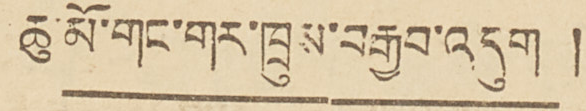ཆུ་མོ་གང་གར་ཁྲུས་བརྒྱབ་འདུག།།
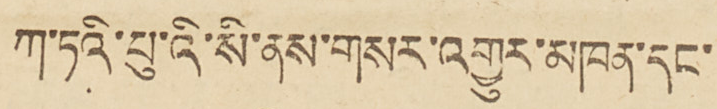ཀ་ཏའི་པུ་འི་སི་ནས་གསར་འགྱུར་མཁན་དང་
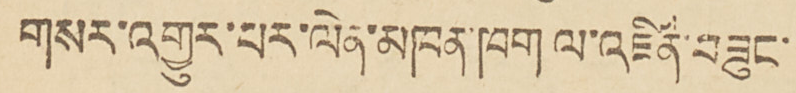གསར་འགྱུར་པར་ལེན་མཁན་ཁག ལ་འཛིན་བཟུང་
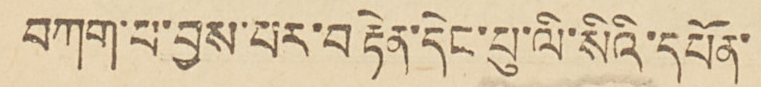བཀག་པ་བྱས་པར་བརྟེན་དེང་པུ་ལི་སིའི་དཔོན་
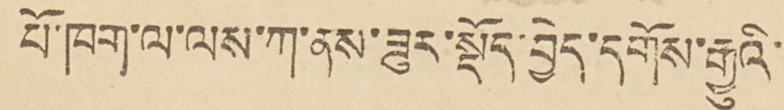པོ་ཁག་ལ་ལས་ཀ་ནས་ཟུར་སྡོད་བྱེད་དགོས་རྒྱུའི་
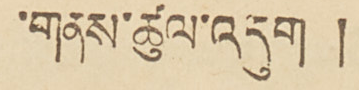གནས་ཚུལ་འདུག།།
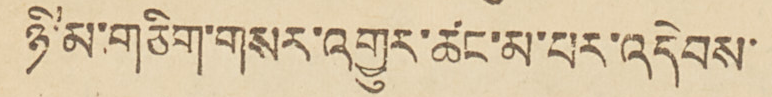ཉི་མ་གཅིག་གསར་འགྱུར་ཚང་མ་པར་འདེབས་
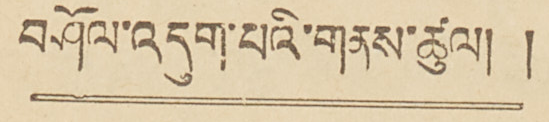བཤོལ་འདུག་པའི་གནས་ཚུལ། །
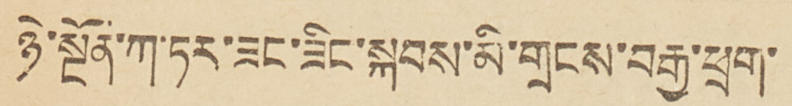ཉེ་སྔོན་ཀ་ཏར་ཟང་ཟིང་སྐབས་མི་གྲངས་བརྒྱ་ཕྲག་
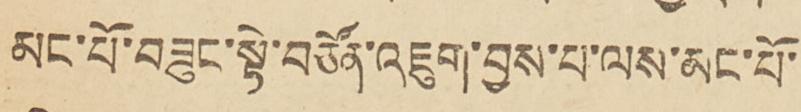མང་པོ་བཟུང་སྟེ་བཙོན་འཇུག་བྱས་པ་ལས་མང་པོ་
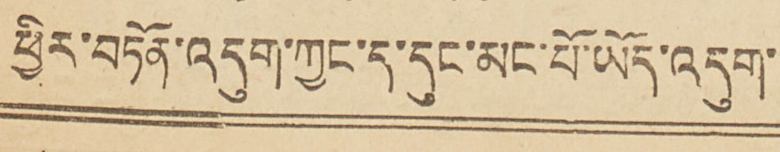ཕྱིར་བཏོན་འདུག་ཀྱང་ད་དུང་མང་པོ་ཡོད་འདུག་
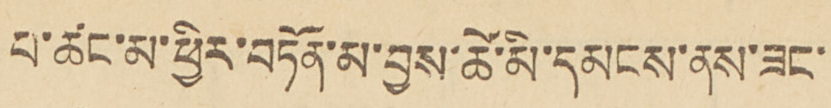པ་ཚང་མ་ཕྱིར་བཏོན་མ་བྱས་ཚེ་མི་དམངས་ནས་ཟང་
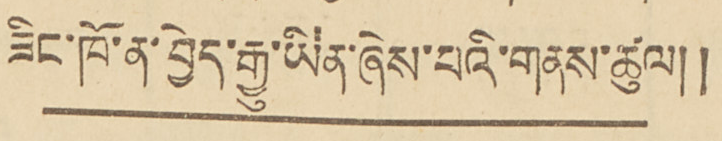ཟིང་ཁོ་ན་བྱེད་རྒྱུ་ཡིན་ཞེས་པའི་གནས་ཚུལ།།
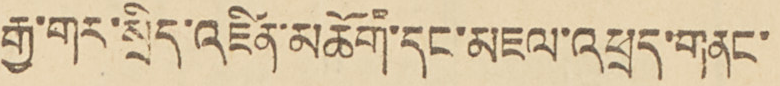རྒྱ་གར་སྲིད་འཛིན་མཆོག་དང་མཇལ་འཕྲད་གནང་
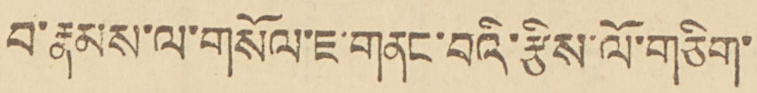བ་རྣམས་ལ་གསོལ་ཇ་གནང་བའི་རྩིས་ལོ་གཅིག་
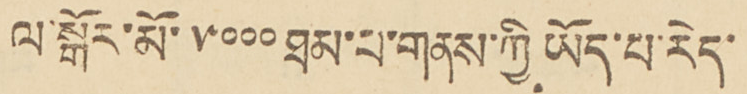ལ་སྒོར་མོ་༥༠༠༠ཐམ་པ་གནས་ཀྱི ཡོད་པ་རེད་
